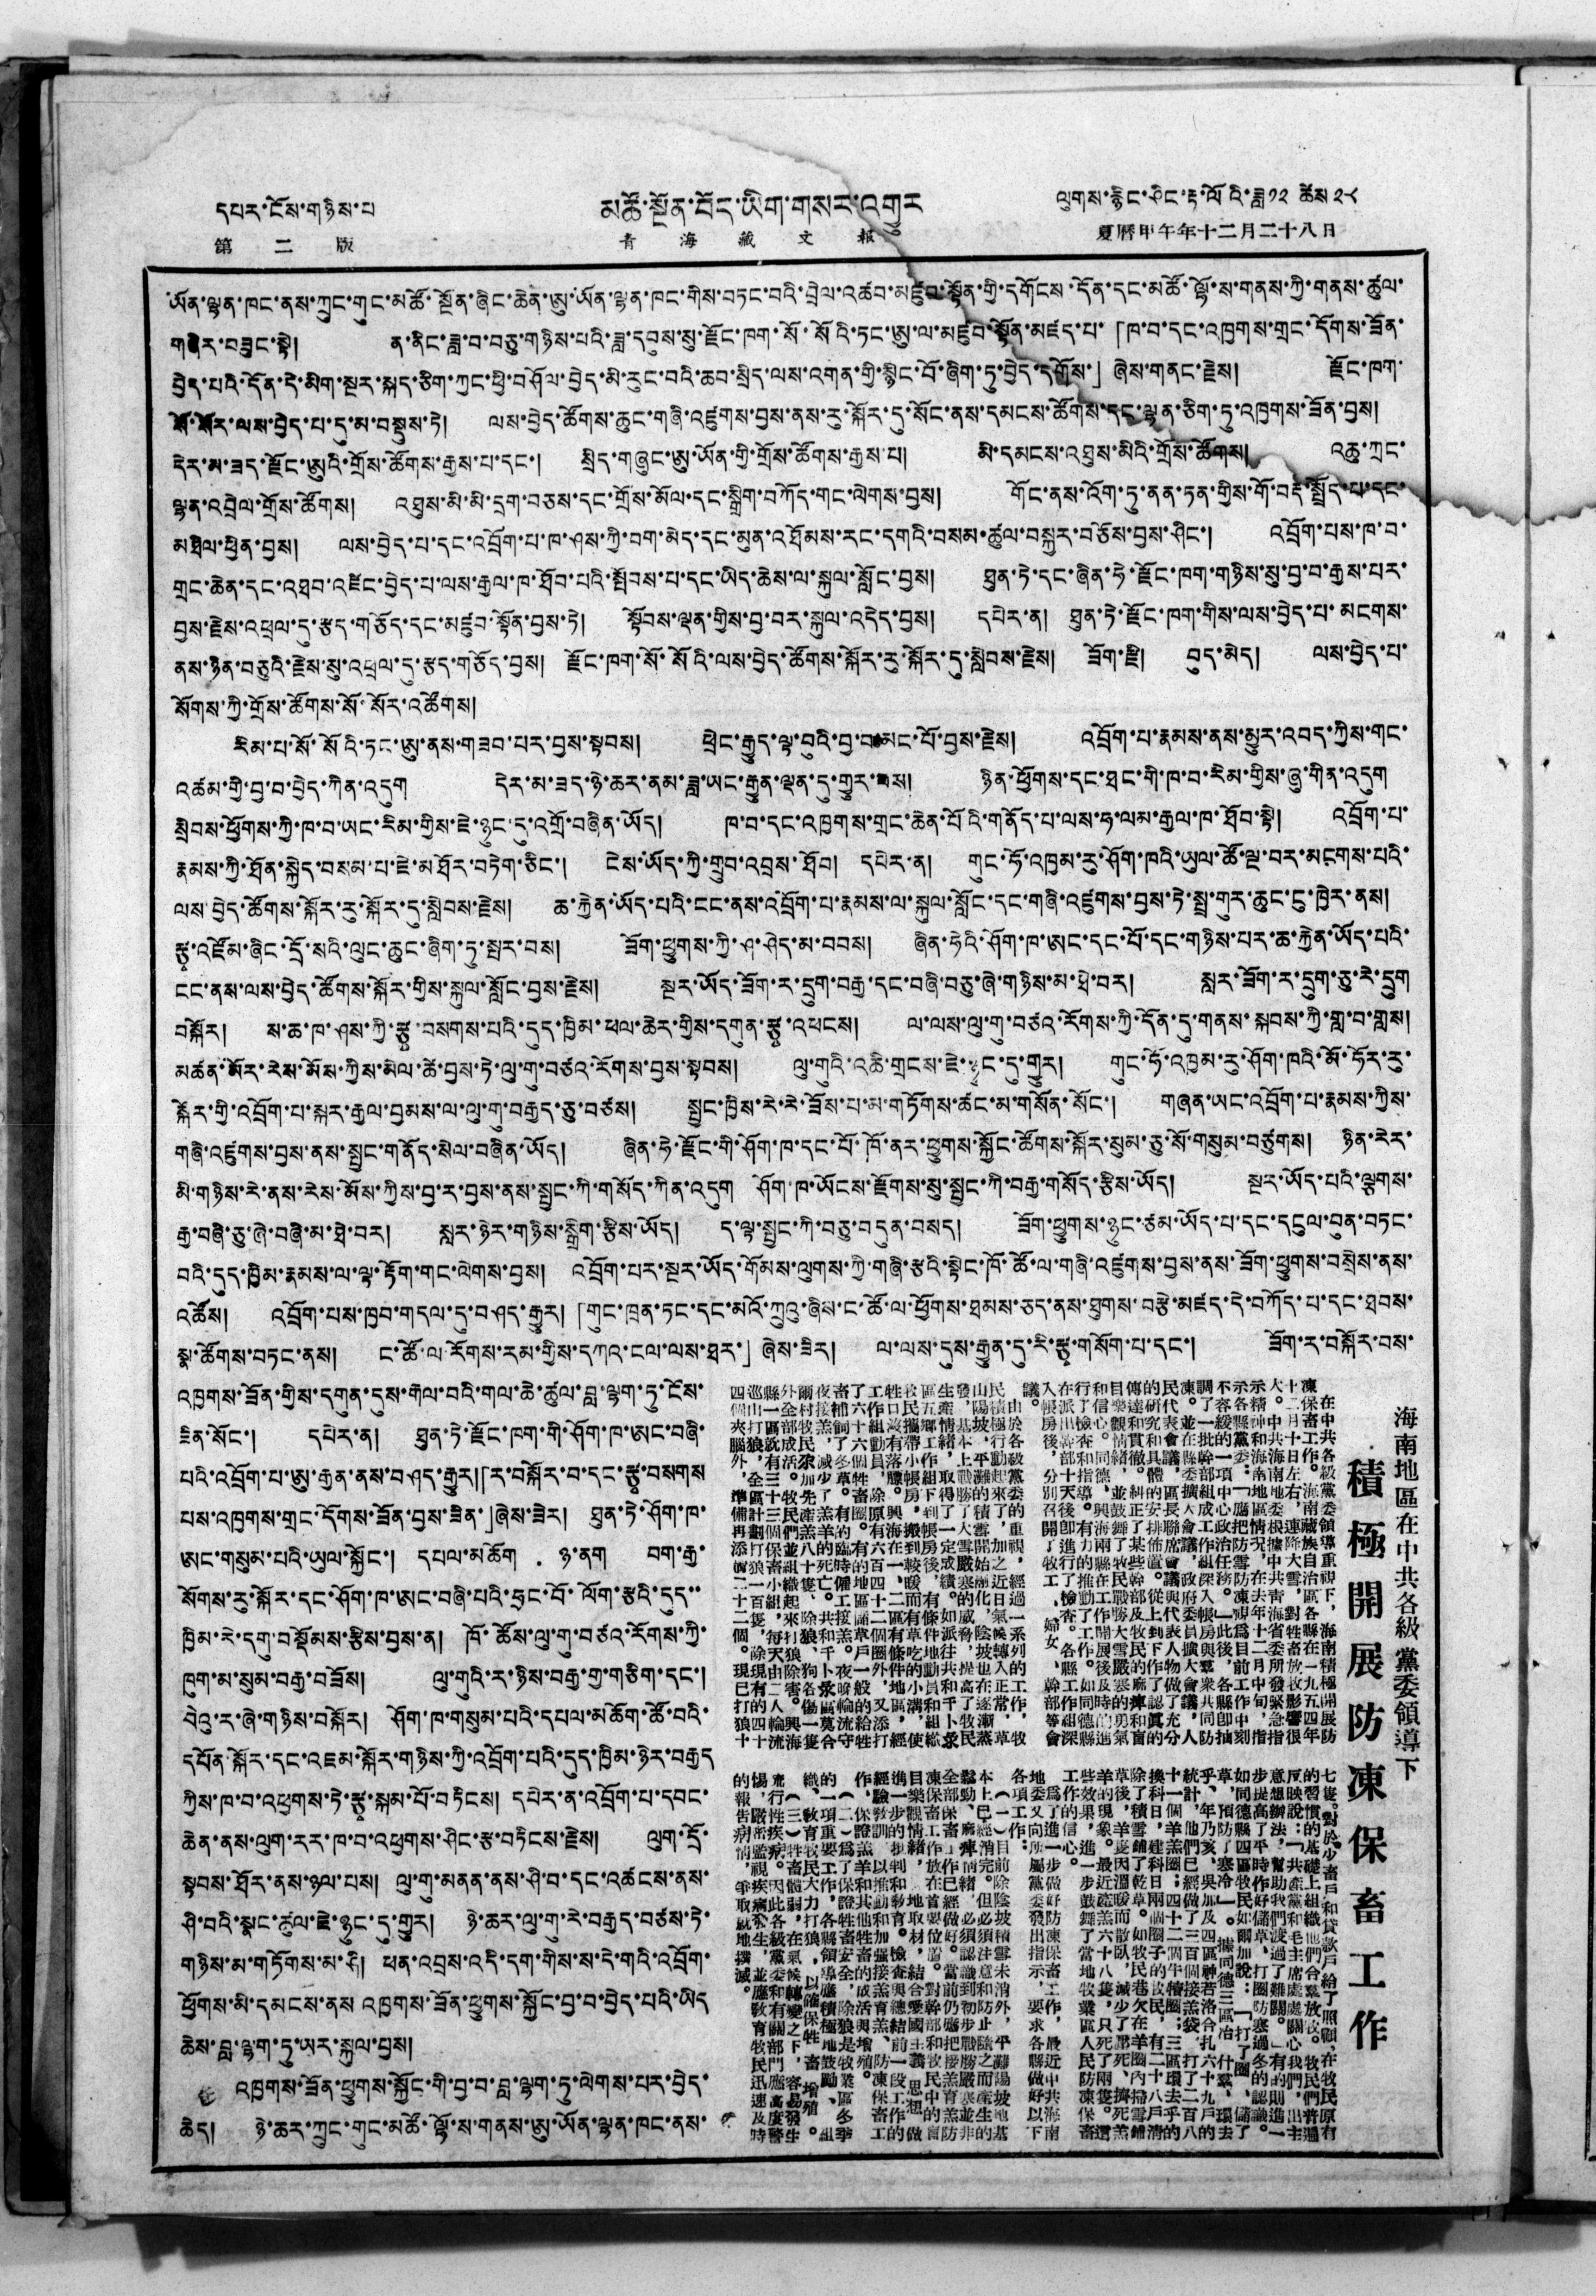དཔར་ངོས་གཉིས་པ། མཚོ་སྔོན་བོད་ཡིག་གསར་འགྱུར ལུགས་རྙིང་ཤིང་རྟ་ལོའི་ཟླ༡༢ ཚེས༢༨
第 二 版 青 海 藏 文 報 夏曆甲午年十二月二十八日
ཡོན་ལྷན་ཁང་ནས་ཀྲུང་གུང་མཚོ་སྔོན་ཞིང་ཆེན་ཨུ་ཡོན་ལྷན་ཁང་གིས་བཏང་བའི་བྲེལ་འཚབ་མཛུབ་སྣོནགྱིདགོངས་དོན་དང་མཚོ་ལྷོ་ས་གནས་ཀྱི་གནས་ཚུལ་
གཞིར་བཟུང་སྟེ། ན་ནིང་ཟླ་བ་བཅུ་གཉིས་པའི་ཟླ་དབུས་སུ་རྫོང་ཁག་སོ་སོའི་ཏང་ཨུ་ལ་མཛུབ་སྟོན་མཛད་པ་「ཁ་བ་དང་འཁྱགས་གྲང་དོགས་ཟོན་
བྱེད་པའི་དོན་དེ་མིག་སྔར་སྐད་ཅིག་ཀྱང་ཕྱི་བཤོལ་བྱེད་མི་རུང་བའི་ཆབ་སྲིད་ལས་འགན་གྱི་སྙིང་བོ་ཞིག་ཏུ་བྱེད་དགོས་」ཞེས་གནང་རྗེས། རྫོང་ཁག་
སོ་སོར་ལས་བྱེད་པ་དུ་མ་བསྡུས་ཏེ། ལས་བྱེད་ཚོགས་ཆུང་གཞི་འཛུགས་བྱས་ནས་རུ་སྐོར་དུ་སོང་ནས་དམངས་ཚོགས་དང་ལྡན་ཅིག་ཏུ་འཁྱགས་ཟོན་བྱས།
དེར་མ་ཟད་རྫོང་ཨུའི་གྲོས་ཚོགས་རྒྱས་པ་དང་། སྲིད་གཞུང་ཨུ་ཡོན་གྱི་གྲོས་ཚོགས་རྒྱས་པ། མི་དམངས་འཐུས་མིའི་གྲོས་ཚོགས འཆུ་ཀྲང་
ལྷན་འབྲེལ་གྲོས་ཚོགས། འཐུས་མི་མི་དྲག་བཅས་དང་གྲོས་མོལ་དང་སྒྲིག་བཀོད་གང་ལེགས་བྱས། གོང་ནས་འོག་ཏུ་ནན་ཏན་གྱིས་གོ་བརྡ་སྤྲོད་པ་དང་
མཐིལ་ཕྱིན་བྱས། ལས་བྱེད་པ་དང་འབྲོག་པ་ཁ་ཤས་ཀྱི་བག་མེད་དང་མུན་འཐོམས་རང་དགའི་བསམ་ཚུལ་བསྐྱར་བཅོས་བྱས་ཤིང་། འབྲོག་པས་ཁ་བ་
གྲང་ཆེན་དང་འཐབ་འཛིང་བྱེད་པ་ལས་རྒྱལ་ཁ་ཐོབ་པའི་སྤོབས་པ་དང་ཡིད་ཆེས་ལ་སྐུལ་སློང་བྱས། ཐུན་ཏེ་དང་ཞིན་ཧེ་རྫོང་ཁག་གཉིས་སུ་བྱ་བ་རྒྱས་པར་
བྱས་རྗེས་འཕྲལ་དུ་རྩད་གཅོད་དང་མཛུབ་སྟོན་བྱས་ཏེ། སྟོབས་ལྡན་གྱིས་བྱ་བར་སྐུལ་འདེད་བྱས། དཔེར་ན། ཐུན་ཏེ་རྫོང་ཁག་གིས་ལས་བྱེད་པ་མངགས་
ནས་ཉིན་བཅུའི་རྗེས་སུ་འཕྲལ་དུ་རྩད་གཅོད་བྱས། རྫོང་ཁག་སོ་སོའི་ལས་བྱེད་ཚོགས་སྐོར་རུ་སྐོར་དུ་སླེབས་རྗེས། ཟོག་རྫི། བུད་མེད། ལས་བྱེད་པ་
སོགས་ཀྱི་གྲོས་ཚོགས་སོ་སོར་འཚོགས།
རིམ་པ་སོ་སོའི་ཏང་ཨུ་ནས་གཟབ་པར་བྱས་སྟབས། ཕྲེང་རྒྱུད་ལྟ་བུའི་བྱ་བམང་པོ་བྱས་རྗེས། འབྲོག་པ་རྣམས་ནས་མྱུར་འབད་ཀྱིས་གང་
གྱི་བྱ་བ་བྱེད་ཀིན་འདུག དེར་མ་ཟད་ཉེ་ཆར་ནམ་ཟླ་ཡང་རྒྱུན་ལྡན་དུ་གྱུར་བས། ཉིན་ཕྱོགས་དང་ཐང་གི་ཁ་བ་རིམ་གྱིས་ཞུ་གིན་འདུག
སྲེབས་ཕྱོགས་ཀྱི་ཁ་བ་ཡང་རིམ་གྱིས་ཇེ་ཉུང་དུ་འགྲོ་བཞིན་ཡོད། ཁ་བ་དང་འཁྱགས་གྲང་ཆེན་པོའི་གནོད་པ་ལས་ཧ་ལམ་རྒྱལ་ཁ་ཐོབ་སྟེ། འབྲོག་པ་
རྣམས་ཀྱི་ཐོན་སྐྱེད་བསམ་པ་ཇེ་མཐོར་བཏེག་ཅིང་། ངེས་ཡོད་ཀྱི་གྲུབ་འབྲས་ཐོབ། དཔེར་ན། གུང་ཧོ་འཁྱམ་རུ་ཤོག་ཁའི་ཡུལ་ཚོ་ལྔ་བར་མངགས་པའི་
ལས་བྱེད་ཚོགས་སྐོར་རུ་སྐོར་དུ་སླེབས་རྗེས། ཆ་རྐྱེན་ཡོད་པའི་ངང་ནས་འབྲོག་པ་རྣམས་ལ་སྐུལ་སློང་དང་གཞི་འཛུགས་བྱས་ཏེ་སྤྲ་གུར་ཆུང་ངུ་ཁྱེར་ནས།
རྩྭ་འཛོམ་ཞིང་དྲོ་སའི་ལུང་ཆུང་ཞིག་ཏུ་སྤར་བས།  ཟོག་ཕྱུགས་ཀྱི་ཤ་ཤེད་མ་བབས།  ཞིན་ཧེའི་ཤོག་ཁ་ཨང་དང་པོ་དང་གཉིས་པར་ཆ་རྐྱེན་ཡོད་པའི་
ངང་ནས་ལས་བྱེད་ཚོགས་སྐོར་གྱིས་སྐུལ་སློང་བྱས་རྗེས། སྔར་ཡོད་ཟོག་ར་དྲུག་བརྒྱ་དང་བཞི་བཅུ་ཞེ་གཉིས་མ་ཐེ་བར། སླར་ཟོག་ར་དྲུག་ཅུ་རེ་དྲུག
བསྐོར།   ས་ཆ་ཁ་ཤས་ཀྱི་རྩྭ་བསགས་པའི་དུད་ཁྱིམ་ཕལ་ཆེར་གྱིས་དགུན་རྩྭ་འཕངས།  ལ་ལས་ལུ་གུ་བཙའ་རོགས་ཀྱི་དོན་དུ་གནས་སྐབས་ཀྱི་གླ་བ་གླས།
མཚན་མོར་རེས་མོས་ཀྱིས་མེལ་ཚེ་བྱས་ཏེ་ལུ་གུ་བཙའ་རོགས་བྱས་སྟབས།  ལུ་གུའི་འཆི་གྲངས་ཇེ་ཉུང་དུ་གྱུར།  གུང་ཧོ་འཁྱམ་རུ་ཤོག་ཁའི་མོ་ཧོར་རུ་
སྐོར་གྱི་འབྲོག་པ་སྐར་རྒྱལ་བྱམས་ལ་ལུ་གུ་བརྒྱད་ཅུ་བཙས། སྤྱང་ཁྱིས་རེ་རེ་ཟོས་པ་མ་གཏོགས་ཚང་མ་གསོན་སོང་། གཞན་ཡང་འབྲོག་པ་རྣམས་ཀྱིས་
གཞི་འཛུགས་བྱས་ནས་སྤྱང་གནོད་སེལ་བཞིན་ཡོད། ཞིན་ཧེ་རྫོང་གི་ཤོག་ཁ་དང་པོ་ཁོ་ནར་ཕྱུགས་སྐྱོང་ཚོགས་སྐོར་སུམ་ཅུ་སོ་གསུམ་བཙུགས། ཉིན་རེར་
མི་གཉིས་རེ་ནས་རེས་མོས་ཀྱིས་བྱ་ར་བྱས་ནས་སྤྱང་ཀི་གསོད་ཀིན་འདུག ཤོག་ཁ་ཡོངས་རྫོགས་སུ་སྦྱང་ཀི་བརྒྱ་གསོད་རྩིས་ཡོད། སྔར་ཡོད་པའི་ལྕགས་
རྒྱ་བཞི་ཅུ་ཞེ་བཞི་མ་ཐེ་བར།  སླར་ཉེར་གཉིས་སྒྲིག་རྩིས་ཡོད།  ད་ལྟ་སྤྱང་ཀི་བཅུ་བདུན་བསད།  ཟོག་ཕྱུགས་ཉུང་ཙམ་ཡོད་པ་དང་དངུལ་བུན་བཏང་
བའི་དུད་ཁྱིམ་རྣམས་ལ་ལྟ་རྟོག་གང་ལེགས་བྱས།  འབྲོག་པར་སྔར་ཡོད་གོམས་ལུགས་ཀྱི་གཞི་རྩའི་སྟེང་ཁོ་ཚོ་ལ་གཞི་འཛུགས་བྱས་ནས་ཟོག་ཕྱུགས་བསྲེས་ནས་
འཚོས། འབྲོག་པས་ཁྱབ་གདལ་དུ་བཤད་རྒྱུར། 「གུང་ཁྲན་ཏང་དང་མའོ་ཀྲུའུ་ཞིས་ང་ཚོ་ལ་ཕྱོགས་ཐམས་ཅད་ནས་ཐུགས་བརྩེ་མཛད་དེ་བཀོད་པ་དང་ཐབས་
སྣ་ཚོགས་བཏང་ནས།  ང་ཚོ་ལ་རོགས་རམ་གྱིས་དཀའ་ངལ་ལས་ཐར་」ཞེས་ཟེར།  ལ་ལས་དུས་རྒྱུན་དུ་རི་རྩྭ་གསོག་པ་དང་།  ཟོག་ར་བསྐོར་བས་
འཁྱགས་ཟོན་གྱིས་དགུན་དུས་རྒལ་བའི་གལ་ཆེ་ཚུལ་བླ་ལྷག་ཏུ་ངོས་
ཟིན་སོང་།  དཔེར་ན།  ཐུན་ཏེ་རྫོང་ཁག་གི་ཤོག་ཁ་ཨང་བཞི་
པའི་འབྲོག་པ་ཨུ་རྒྱན་ནས་བཤད་རྒྱུར།「ར་བསྐོར་བ་དང་རྩྭ་བསགས
པས་འཁྱགས་གྲང་དོགས་ཟོན་བྱས་ཟིན་」ཞེས་ཟེར།  ཐུན་ཏེ་ཤོག་ཁ་
ཨང་གསུམ་པའི་ཡུལ་སྐྱོང་།  དཔལ་མཆོག  ཉ་ནག  བག་རྒྱ་
སོགས་རུ་སྐོར་དང་ཤོག་ཁ་ཨང་བཞི་པའི་ཧྲང་བོ་ལོག་རྩའི་དུད་་
ཁྱིམ་རེ་དགུ་བསྡོམས་རྩིས་བྱས་ན།  ཁོ་ཚོས་ལུ་གུ་བཙའ་རོགས་ཀྱི་
ཁུག་མ་སུམ་བརྒྱ་བཟོས།  ལུ་གུའི་ར་ཉིས་བརྒྱ་གྱ་གཅིག་དང་།
བེའུ་ར་ཞེ་གཉིས་བསྐོར།  ཤོག་ཁ་གསུམ་པའི་དཔལ་མཆོག་ཚོ་བའི་
དཔོན་སྐོར་དང་འཇམ་སྐོར་གཉིས་ཀྱི་འབྲོག་པའི་དུད་ཁྱིམ་ཉེར་བརྒྱད
ཀྱིས་ཁ་བ་འཕྱགས་ཏེ་རྩྭ་སྐམ་པོ་བཏིངས།  དཔེར་ན་འབྲོག་པ་དབང་
ཆེན་ནས་ལུག་རར་ཁ་བ་འཕྱགས་ཤིང་རྩ་བཏིངས་རྗེས།  ལུག་དྲོ་
སྟབས་ཐོར་ནས་ཉལ་པས།  ལུ་གུ་མནན་ནས་ཤི་བ་དང་འཚངས་ནས་
ཤི་བའི་སྣང་ཚུལ་ཇེ་ཉུང་དུ་གྱུར།  ཉེ་ཆར་ལུ་གུ་རེ་བརྒྱད་བཙས་ཏེ་
གཉིས་མ་གཏོགས་མ་ཤི།  ཕན་འབྲས་འདི་དག་གིས་ས་དེ་གའི་འབྲོག་
ཕྱོགས་མི་དམངས་ནས་འཁྱགས་ཟོན་ཕྱུགས་སྐྱོང་བྱ་བ་བྱེད་པའི་ཡིད
ཆེས་བླ་ལྷག་ཏུ་ཡར་སྐུལ་བྱས།
འཁྱགས་ཟོན་ཕྱུགས་སྐྱོང་གི་བྱ་བ་བླ་ལྷག་ཏུ་ལེགས་པར་བྱེད་
ཆེད། ཉེ་ཆར་ཀྲུང་གུང་མཚོ་ལྷོ་ས་གནས་ཨུ་ཡོན་ལྷན་ཁང་ནས་
海南地區在中共各級黨委領導下
積 極 開 展 防 凍 保 畜 工 作
在中共各級黨委領導重視下，海南積極開展防
凍保畜工作。海南藏族自治區各縣在一九五四年
十二月十日左右，連降大雪，對牲畜放牧影響很
大。中共海南地委根據中共靑海省委所發禁忌指
示精神和海南地區情況，在去年十二月中旬，指
示各縣黨委：「應把防雪防凍視爲目前工作中刻
不容緩的一項中心政治任務。」此後，各縣卽抽
調了一批幹部組成工作組深入帳房與羣衆共同防
凍。並在縣委擴大會議，政府委員擴大會議，人
民代表會議，區長聯席會議與代表人物作了充分
的研究和具體的安排佈置。從上到下作了認眞的
傳達和貫徹。糾正了某些幹部及牧民的麻痹和盲
目樂觀情緒，並鼓舞了牧民戰勝大雪嚴寒的勇氣
和信心。同德、興海兩縣在工作開展後及時的進
行了檢查和指導。有力的推動了工作。如同德縣
在派處幹部十天後卽進行了檢查。各縣工作組深
入帳房後，分別召開了牧工 、婦女 、幹部等會
議。
由於各級黨委的重視，經過一系列的工作，牧
民積極行動起來了，加之近日氣候轉入正常，草
山陽坡，平灘的積雪開始融化，陰坡也在逐潮蒸
發，基本上戰勝了大雪嚴寒的威脅，提高了牧民
生產情緒，取得了一定成績。如派往共和千卜彔
區五鄉工作組下到帳房後，有條件地動員和組織
牧民攜帶小帳房，搬到較暖而有草吃的小溝，使
牲口沒有落膘。興海在一、二區有條件地區，經
工作組動員，除原有六百四十二個圈外，又添打
了六十六個牲畜圈。有的地區儲草戶一般的給牲
畜補飼了冬草。有的臨時僱工接羔。夜晚輪流守
夜接羔，減少了羔羊的死亡。共和千卜彔區莫合
爾村牧民尕加先產羔八十隻，除狼、狗各傷一隻
外全部成活。牧民們並組織起來打狼除害。興海
縣一區就有三十三個保畜小組，每天由二人輪流
巡山打狼，全區計劃打狼一百隻，除現有的四十
四個夾腦外，準備再添置二十二個。現已打狼十
七隻。對於少畜戶和貸款戶給了照顧，在牧民原有
的習慣地基礎上組織他們合羣放牧。牧民很普遍
反映說：「共產黨和毛主席處處關心我們，出主
意想辦法，幫助我們渡過了難關。」有的則進一
步提高了平時作好備草、打圈防寒過冬的認識。
如同德縣四區牧民如爾加說： 「打了圈、儲了
草、預防了寒冷」。據同德三區冶 什羣、環去
乎、年乃亥、吳加及四區神若洛合扎六十九戶的
統計，他們已經做了三百個接羔袋，打了二百八
十一個羊羔圈；四十二個牛槽圈；三區環去乎的
換科日、建科日兩個圈子的牧民，有二十八戶清
除了積雪鋪了乾草。如牧民巷欠在羊圈內掃雪鋪
草後，羊隻因溫暖而散臥，減少了壓死、擠死羔
羊的現象。最近產羔六十八隻，只死了兩隻。這
些效果，進一步鼓舞了當地牧業區人民防凍保畜
工作的信心。
爲了進一步做好防凍保畜工作，最近中共海南
地委又向所屬黨委發出指示，要求各縣做好以下
各項工作：
（一）目前除陰坡積雪未消外，平灘陽坡也基
本上已經消完。但必須注意和防止隨之而產生的
鬆動、麻痹情緒，必須認識到初步戰勝嚴寒並非
全部保畜工作已經做好。當前仍應把接羔育羔防
凍保畜工作放在首要位置。對幹部和牧民中的盲
目樂觀情緒，就地取材，結合愛國主義 思想 做
進一步的批判和敎育。檢查與總結前一段工作的
經驗敎訓，以推動和加強接羔育羔、防凍保畜工
作，保證羔羊和其他牲畜的成活與增殖。
（二）爲了保證牲畜安全，除狼是牧業區多季
的一項重要工作，各縣領導應積極地鼓勵、 組
織、敎育牧民大力打狼 ，以確保牲 畜 增殖。
（三）牲畜體弱，在氣候轉變之下，容易發生
流行性疾病。因此各級黨委和有關部門應高度警
惕，嚴密監視疾病發生，並應敎育牧民迅速及時
的報告病情，爭取就地撲滅。
